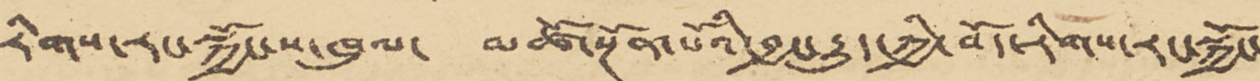རིགས་རང་སྐྱོང་ས་ཁུལ་ མཚོ་སྔོན་པོའི་བྱང་རྒྱུད་ཀྱི་བོད་རིགས་རང་སྐྱོང་
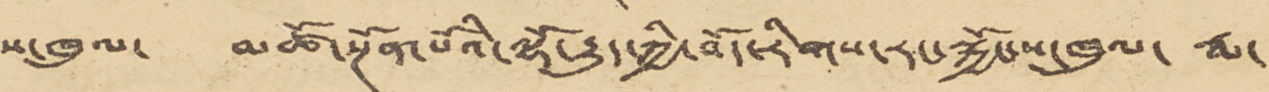ས་ཁུལ་ མཚོ་སྔོན་པོའི་ལྷོ་རྒྱུད་ཀྱི་བོད་རིགས་རང་སྐྱོང་ས་ཁུལ་ རྨ་
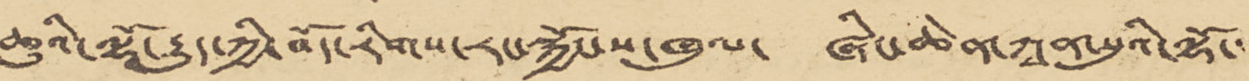ཆུའི་ལྷོ་རྒྱུད་ཀྱི་བོད་རིགས་རང་སྐྱོང་ས་ཁུལ་ ཞིང་ཆེན་ཀཱན་སུའི་ལྷོ་་་
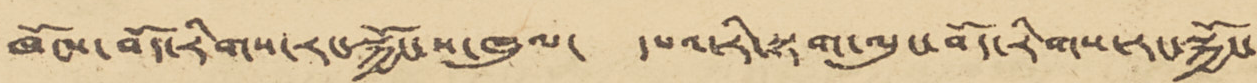ཁོངས་བོད་རིགས་རང་སྐྱོང་ས་ཁུལ་ དཔའ་རི་སྟག་ལུང་བོད་རིགས་རང་སྐྱོང་
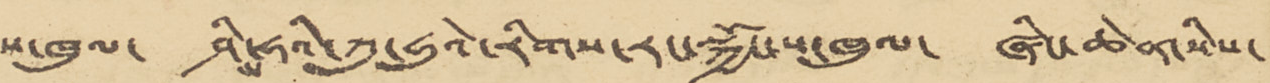ས་ཁུལ་ ཤཱིན་ཧའི་ཀུ་ཧུའེ་རིགས་རང་སྐྱོང་ས་ཁུལ་ ཞིང་ཆེན་སིས་
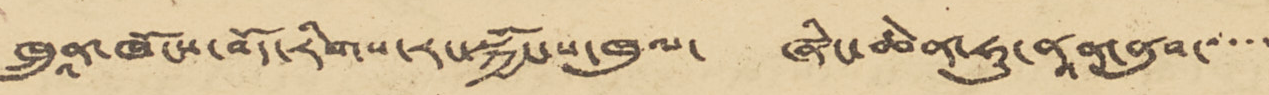ཁྲུནཱ་ཁོངས་བོད་རིགས་རང་སྐྱོང་ས་ཁུལ་ ཞིང་ཆེན་ཧུ་ནཱན་ནུབ་་་་་
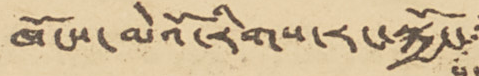ཁོངས་མེའོ་རིགས་རང་སྐྱོང་
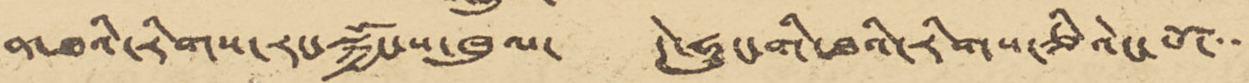ན་ཐའི་རིགས་རང་སྐྱོང་ས་ཁུལ་ དེ་ཧུང་གི་ཐའི་རིགས་ཅིའེང་པོ་་་་
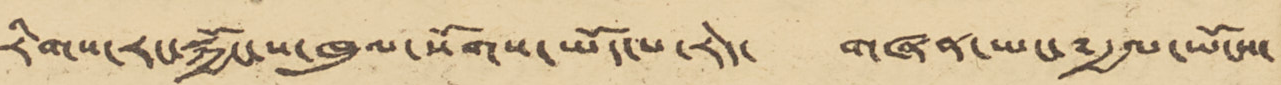རིགས་རང་སྐྱོང་ས་ཁུལ་སོགས་ཡོད་པ་རེད་ གཞན་ཡང་༸རྒྱལ་ཡོངས་
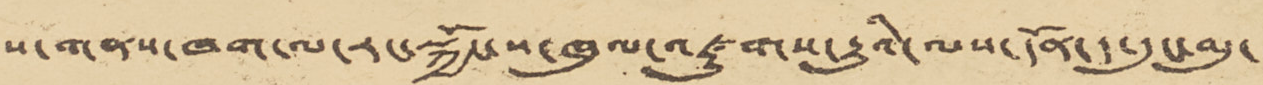ས་གནས་ཁག་ལ་རང་སྐྱོང་ས་ཁུལ་འཛུགས་རྒྱུའི་ལས་དོན་ད་དུང་མུ་
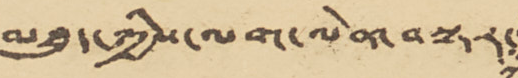མཐུད་ཀྱིས་ལག་ལེན་བསྟར་
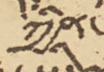ཀྱིན་
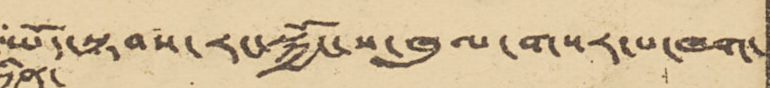ཡོད་སྟབས་རང་སྐྱོང་ས་ཁུལ་གསར་པ་ཁག་
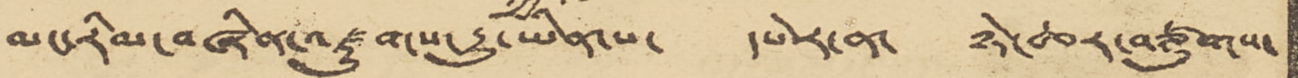མང་རིམ་བཞིན་འཛུགས་རྒྱུ་ཡིན་པ་ དཔེར་ན་ ཉེ་ཆར་བཙུགས་
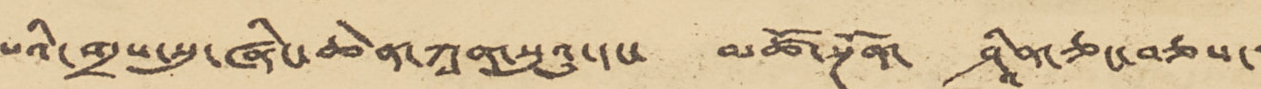པའི་གྲས་སུ་ཞིང་ཆེན་ཀཱན་སུའུ་དང་ མཚོ་སྔོན་ ཤཱིན་ཅང་བཅས་་
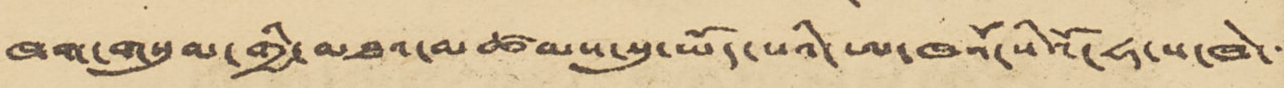ཁག་གསུམ་གྱི་མཐའ་མཚམས་སུ་ཡོད་པའི་ཨ་ཁའོ་སིའོ་ཧ་ས་ཁེ་
